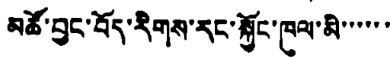མཚོ་བྱང་བོད་རིགས་རང་སྐྱོང་ཁུལ་མི་་་་་་
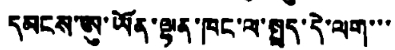དམངས་ཨུ་ཡོན་ལྷན་ཁང་ལ་སྤྲད་དེ་ལག་་་
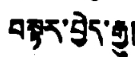བསྟར་བྱེད་རྒྱུ།
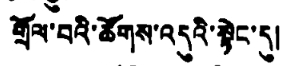གྲོལ་བའི་ཚོགས་འདུའི་སྟེང་དུ།
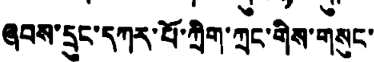ཞབས་དྲུང་དཀར་པོ་ཀྲིག་ཀྲང་གིས་གསུང་་
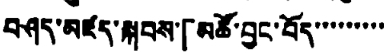བཤད་མཛད་སྐབས་「མཚོ་བྱང་བོད་་་་་་་་་་
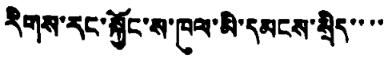རིགས་རང་སྐྱོང་ས་ཁུལ་མི་དམངས་སྲིད་་་་
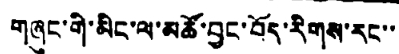གཞུང་གི་མིང་ལ་མཚོ་བྱང་བོད་རིགས་རང་་
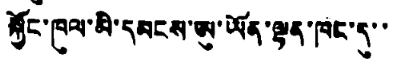སྐྱོང་ཁུལ་མི་དམངས་ཨུ་ཡོན་ལྷན་ཁང་དུ་་
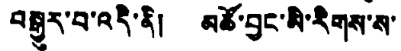བསྒྱུར་བ་འདི་ནི། མཚོ་བྱང་མི་རིགས་ས་
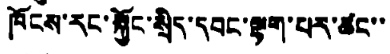ཁོངས་རང་སྐྱོང་སྲིད་དབང་ལྷག་པར་ཚང་་་
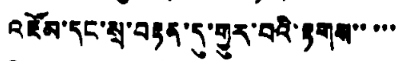འཛོམ་དང་སྲ་བརྟན་དུ་གྱུར་བའི་རྟགས་་་་་
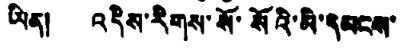ཡིན། འདིས་རིགས་སོ་སོའི་མི་དམངས་
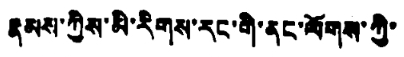རྣམས་ཀྱིས་མི་རིགས་རང་གི་ནང་སོགས་ཀྱི་
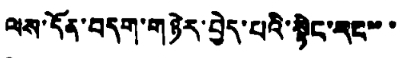ལས་དོན་བདག་གཉེར་བྱེད་པའི་སྟིང་རང་་་
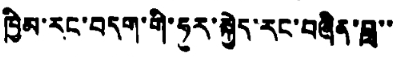ཁྱིམ་རང་བདག་གི་ཧུར་སྐྱེད་རང་བཞིན་བླ་་
